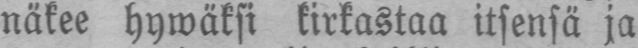näkee hywäksi kirkastaa itsensä ja
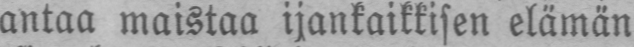antaa maistaa ijankaikkisen elämän
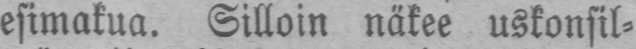esimakua. Silloin näkee uskonsil-
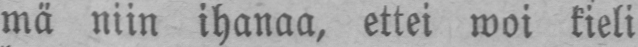mä niin ihanaa, ettei woi kieli
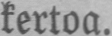kertoa.
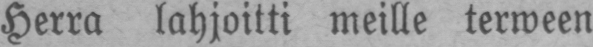Herra lahjoitti meille terween
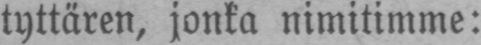tyttären, jonka nimitimme:
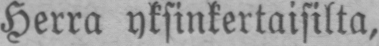Herra yksinkertaisilta,
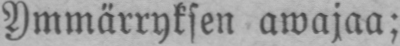Ymmärryksen awajaa;
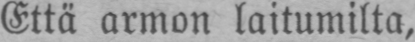Että armon laitumilta.
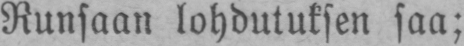Runsaan lohdutuksen saa;
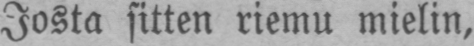Josta sitten riemu mielin,
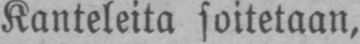Kanteleita soitetaan,
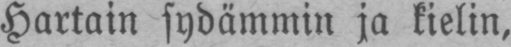Hartain sydämmin ja kielin,
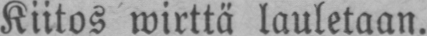Kiitos wirttä lauletaan.
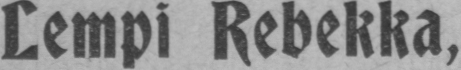Lempi Rebekka,
